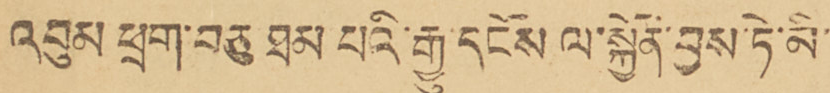འབུམ ཕྲག་བཅུ ཐམ པའི་རྒྱུ་དངོས ལ་སྐྱོན་བྱས་ཏེ་མི་
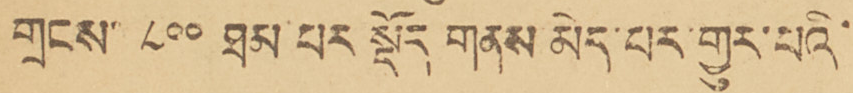གྲངས་ ༨༠༠ ཐམ་པར སྡོད གནས མེད་པར་གྱུར་པའི་
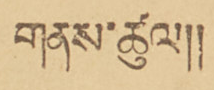གནས་ཚུལ།།
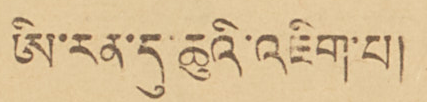ཨི་རན་དུ་ཆུའི་འཇིག་པ།
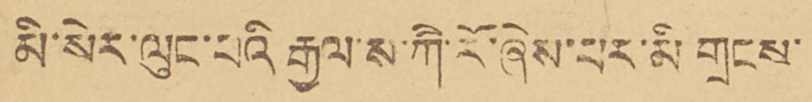མི་སེར་ལུང་པའི རྒྱལ་ས་ཀི་རོ་ཞེས་པར་མི གྲངས་
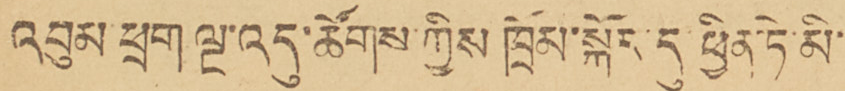འབུམ་ཕྲག ལྔ་འདུ་ཚོགས་ཀྱིས ཁྲོམ་སྐོར་དུ་ཕྱིན་ཏེ་མི་
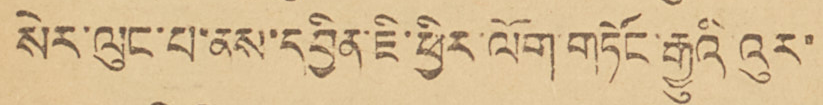སེར་ལུང་པ་ནས་དབྱིན་ཇི་ཕྱིར་ལོག་གཏོང་རྒྱུའི འུར་
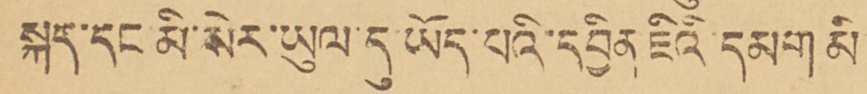སྐད་དང་མི་སེར་ཡུལ་དུ་ཡོད་པའི་དབྱིན ཇིའི་དམག མི
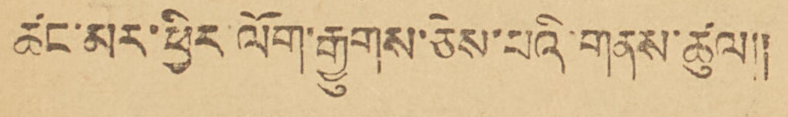ཚང་མར་ཕྱིར ལོག་རྒྱུགས་ཅེས་པའི་གནས་ཚུལ།།
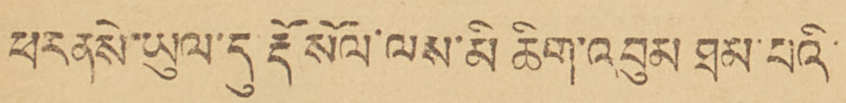ཕརནསེ་ཡུལ་དུ་རྡོ སོལ་ལས་མི ཆིག་འབུམ ཐམ་པའི་
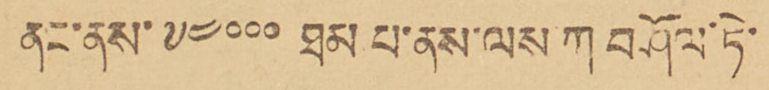ནང་ནས་༧༤༠༠༠ ཐམ པ་ནས་ལས་ཀ བཤོལ་ཏེ་
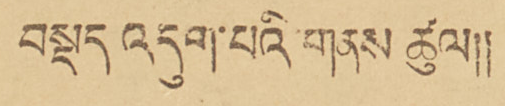བསྡད འདུག་པའི་གནས ཚུལ།།
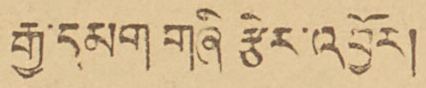རྒྱ་དམག གཞི རྩེར་འབྱོར།
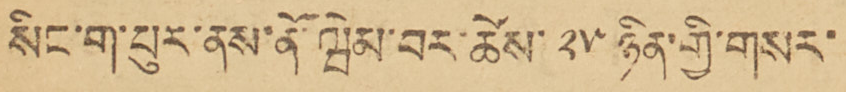སིང་ག་པུར་ནས་ནོ་ཝེམ་བར་ཚེས་ ༢༥ ཉིན་གྱི་གསར་
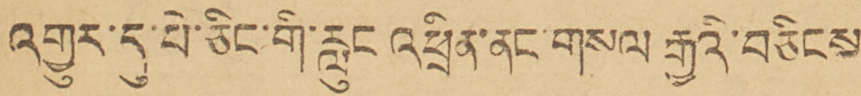འགྱུར་དུ་པེ་ཅིང་གི་རླུང འཕྲིན་ནང་གསལ རྒྱའི་བཅིངས
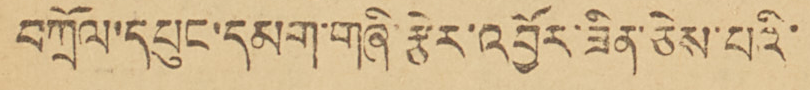བཀྲོལ་དཔུང་དམག་གཞི་རྩེར་འབྱོར་ཟིན་ཅེས་པའི་
